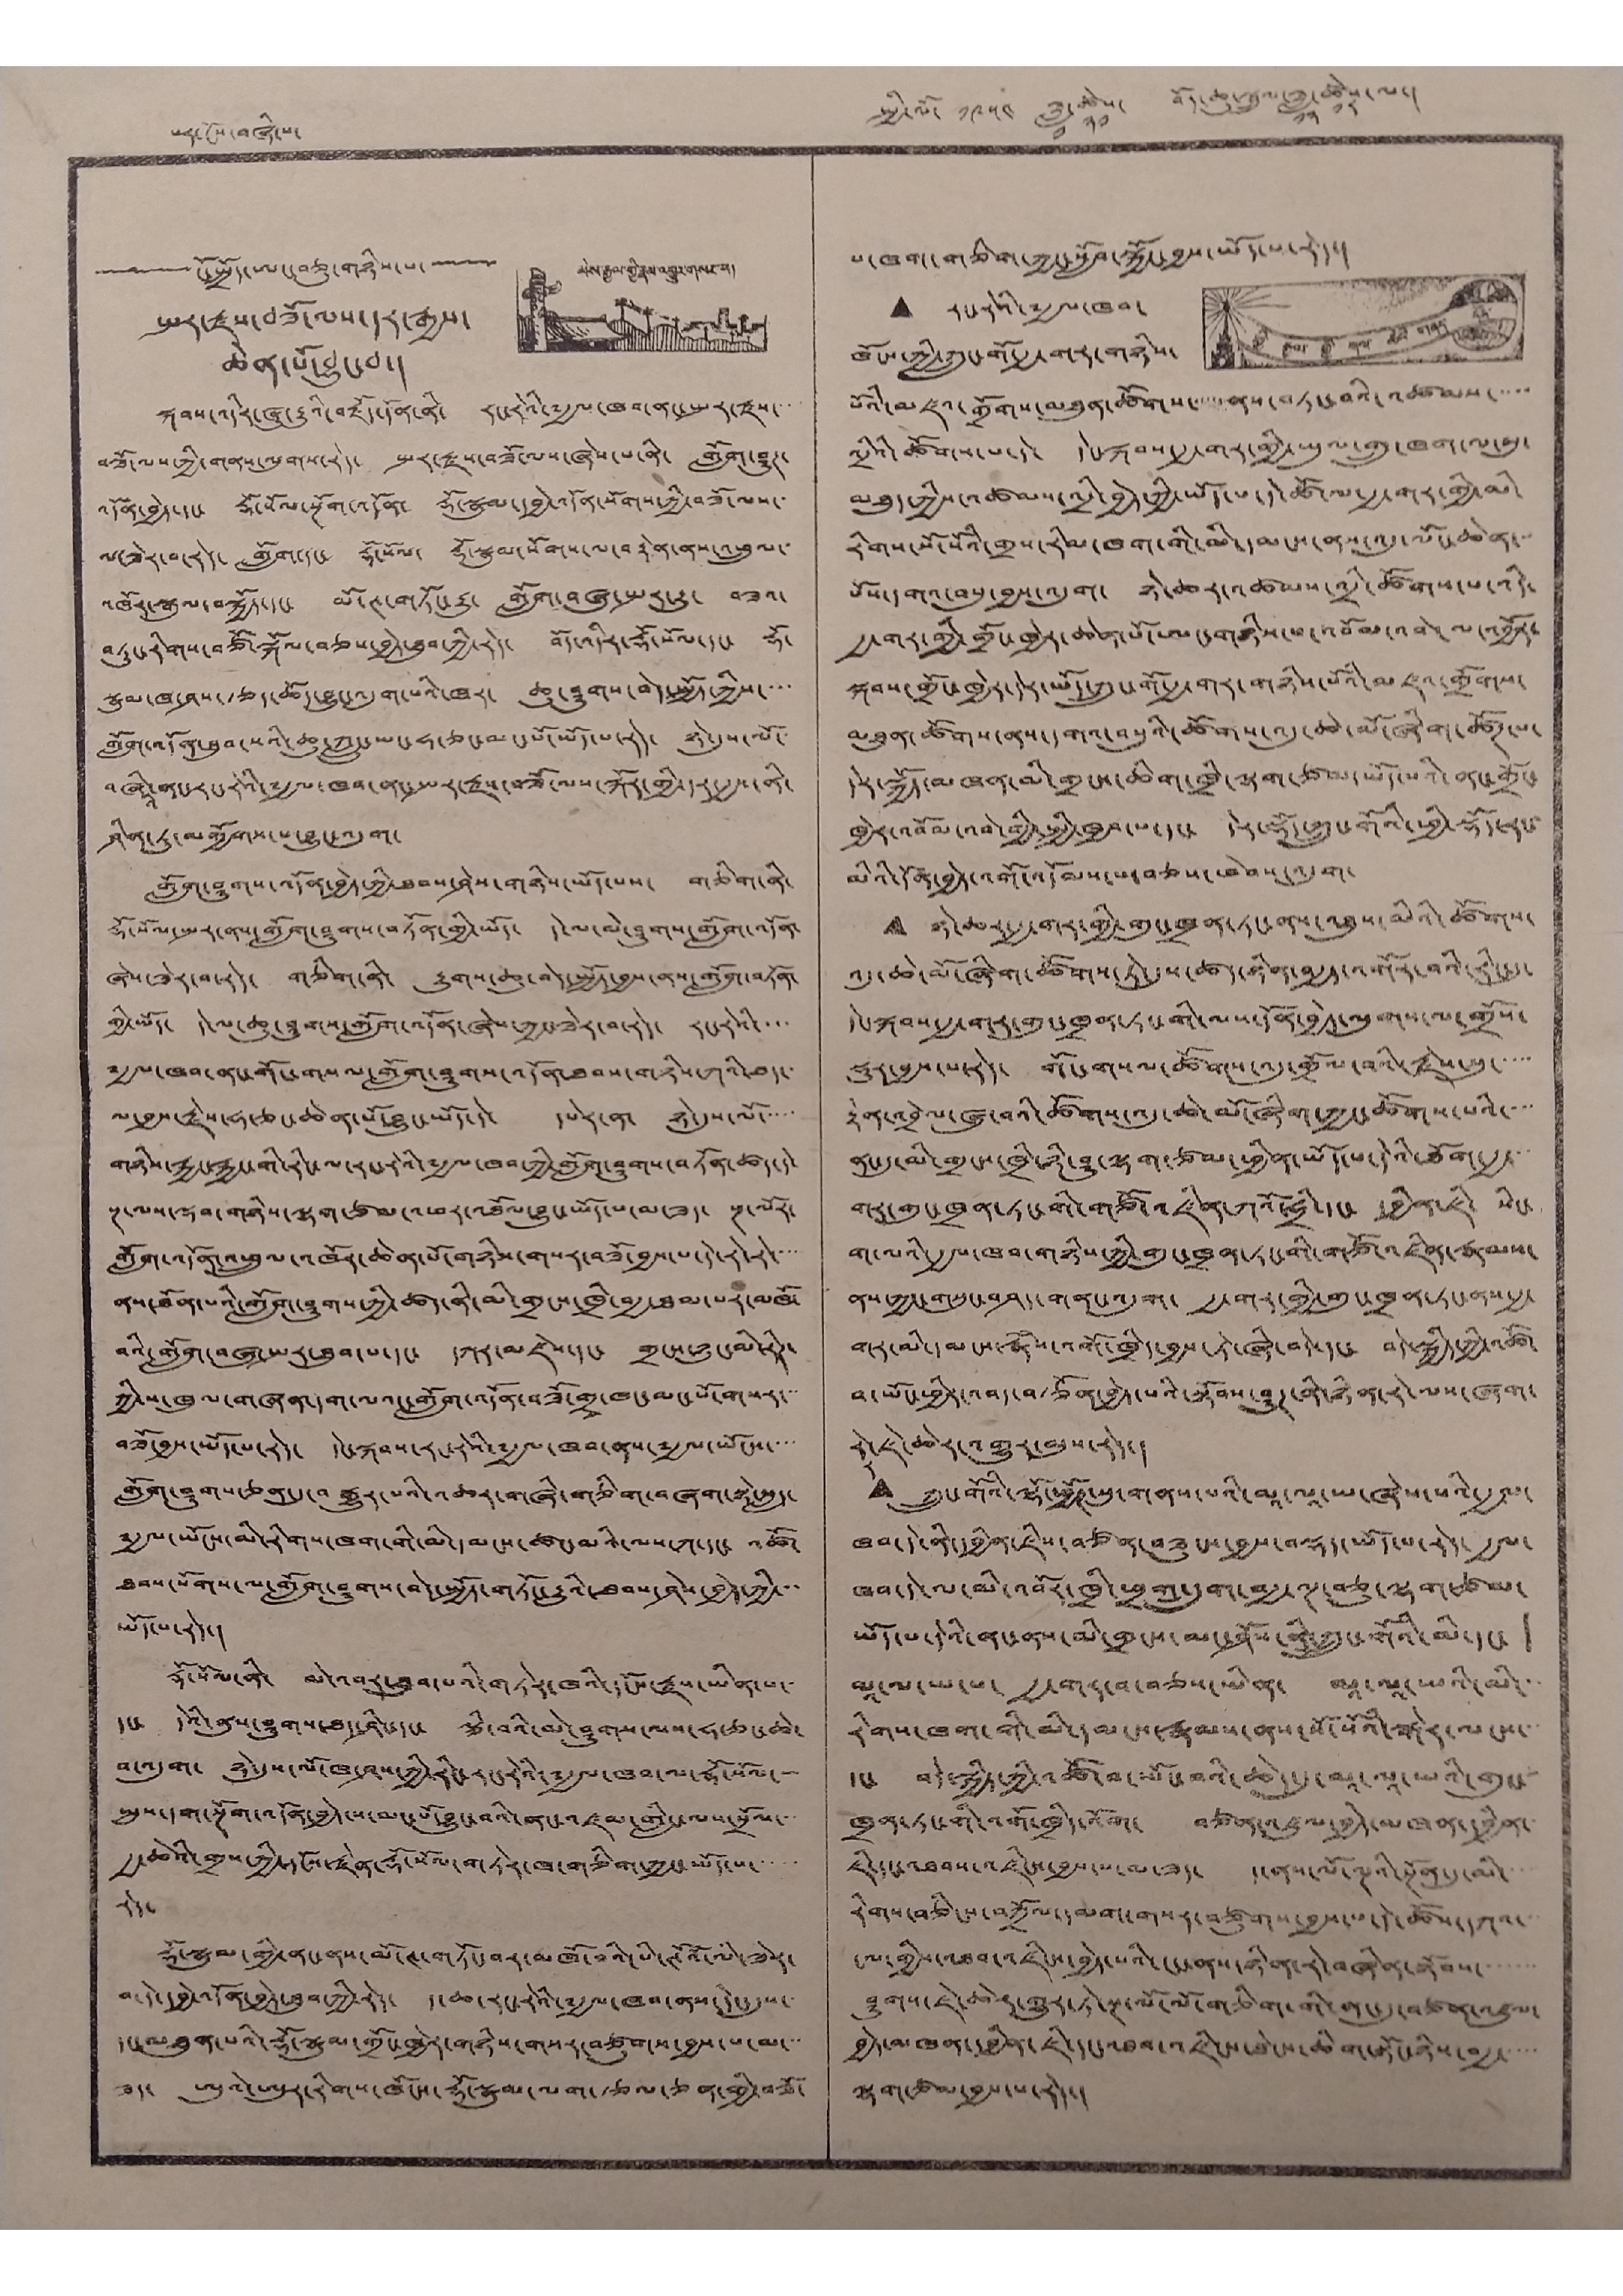པར་ངོས་བཞི་པ་ སྤྱི་ལོ་ ༡༩༥༤ ཟླ་
༡
ཚེས་
༢༡
བོད་ཆུ་སྦྲུལ་ཟླ་
༡༢
ཚེས་
༡༨
ལ་།
མེས་རྒྱལ་གྱི་རྣམ་འགྱུར་གསར་པ།
"ངོ་སྤྲོད་ཨང་བཅུ་གཉིས་པ་"
སྤར་རྫས་བཟོ་ལས་དར་རྒྱས་
ཆེན་པོ་བྱུང་བ་།
སྐབས་འདིར་ཞུ་རྒྱུའི་བརྗོད་དོན་ནི་ རང་རེའི་༸རྒྱལ་ཁབ་ནང་སྤར་རྫས་་་་
བཟོ་ལས་ཀྱི་གནས་ལུགས་རེད་ སྤར་རྫས་བཟོ་ལས་ཞེས་པ་ནི་ གློག་ཤུཊ་
འདོན་བྱེད་དང་ རྡོ་སོལ་སྔོག་འདོན་ རྡོ་སྣུམ་དབྱེ་འདོན་སོགས་ཀྱི་བཟོ་ལས་་
ལ་ཟེར་བ་རེད་ གློག་དང་ རྡོ་སོལ་ རྡོ་སྣུམ་སོགས་ལ་བརྟེན་ནས་འཕྲུལ་་
འཁོར་སྒུལ་བསྐྱོད་དང་ མོ་ཊ་གཏོང་རྒྱུ་ གློག་བཞུ་སྤར་རུ་ བཟའ་
བཏུང་རིགས་བཙོ་སྐོལ་བཅས་བྱེད་ཐུབ་ཀྱི་རེད་ བོད་འདིར་རྡོ་སོལ་དང་ རྡོ་
སྣུམ་ཁ་ཤས་རྩད་ཆོད་བྱུང་འདུག་པའི་ཁར་ ཆུ་ཤུགས་བེད་སྤྱོད་ཀྱིས་་་་
གློག་འདོན་ཐུབ་པའི་ཆུ་ཀླུང་ཡང་ཧ་ཅང་མང་པོ་ཡོད་པ་རེད་ ཉེ་དུས་ལོ་་
བཞི་ནང་རང་རེའི་༸རྒྱལ་ཁབ་ནང་སྤར་རྫས་བཟོ་ལས་སྐོར་གྱི་དར་རྒྱས་ནི་
འི
ཤིན་ཏུ་མགྱོགས་པ་བྱུང་འདུག་
གློག་ཤུགས་འདོན་བྱེད་ཀྱི་ཐབས་ཤེས་གཉིས་ཡོད་པས་ གཅིག་ནི་
རྡོ་སོལ་སྤར་ནས་གློག་ཤུགས་བཏོན་གྱི་ཡོད་ དེ་ལ་མེ་ཤུགས་གློག་འདོན་
ཞེས་ཟེར་བ་རེད་ གཅིག་ནི་ རྒྱུགས་ཆུ་བེད་སྤྱོད་བཡས་ནས་གློག་བཏོན་
གྱི་ཡོད་ དེ་ལ་ཆུ་ཤུགས་གློག་འདོན་ཞེས་ཀྱང་ཟེར་བ་རེད་ རང་རེའི་་་་
༸རྒྱལ་ཁབ་ནང་གོང་གསལ་གློག་ཤུགས་འདོན་ཐབས་གཉིས་ཀའི་ཐད་
ལ་བྱས་རྗེས་ཧ་ཅང་ཆེན་པོ་བྱུང་ཡོད་དེ་ དཔེར་ན་ ཉེ་དུས་ལོ་་་་་
གཉིས་རྐྱང་རྐྱང་གི་རིང་ལ་རང་རེའི་༸རྒྱལ་ཁབ་ཀྱི་གློག་ཤུགས་བཏོན་ཚད་དེ་
སྔ་ལས་ལྡབ་གཉིས་ལྷག་ཙམ་འཕར་འཐོལ་བྱུང་ཡོད་པ་མ་ཟད་ སྔ་ལོར་
གློག་འདོན་འཕྲུལ་འཁོར་ཆེན་པོ་གཉིས་གསར་བཟོ་བྱས་པ་དེ་རེ་རེ་་་་
ནས་ཐོན་པའི་གློག་ཤུགས་ཀྱི་ཚད་ནི་མི་གྲངས་ཁྲི་བརྒྱ་ཐམ་པར་མཁོ་
བའི་གློག་བཞུ་སྤར་ཐུབ་པ་དང་ དཀར་མཛེས་དང་ གྲངས་ཉུང་མི་རིཊ་
ཀྱི་ས་ཁུལ་གཞན་དག་ལའང་གློག་འདོན་བཟོ་གྲྭ་ཁང་མང་པོ་གསར་་་
བཟོ་བྱས་ཡོད་པ་རེད་ དེངས་སྐབས་རང་རེའི་༸རྒྱལ་ཁབ་ནས་༸རྒྱལ་ཡོངས་་་་
གློག་ཤུགས་ཅན་དུ་བརྒྱུར་པའི་འཆར་གཞི་གཅིག་བཞག་སྟེ་སླད་
༸རྒྱལ་ཡོངས་མི་རིགས་ཁག་གི་མི་དམངས་ཚང་མའི་ལས་ཀ་དང་ འཚོ་
ཐབས་སོགས་ལ་གློག་ཤུགས་བེད་སྤྱོད་གཏོང་རྒྱུའི་ཐབས་ཤེས་བྱེད་ཀྱི་་་
ཡོད་པ་རེད་།
རྡོ་སོལ་ནི་ མེ་འབར་ཐུབ་པའི་གཏེར་ཁའི་དངོས་རྫས་ཡིན་པ་་
དང་ དེའི་ནུས་ཤུགས་ཐད་ཤིང་དང་ ལྕི་བ་མེ་ཤུགས་ལས་ཧ་ཅང་ཆེ་
བ་འདུག་ ཉེ་དུས་ལོ་ཁ་ཤས་ཀྱི་རིང་རང་རེའི་༸རྒྱལ་ཁབ་ལ་རྡོ་སོལ་་
སྤུས་དག་སྔོག་འདོན་བྱེད་ས་མང་པོ་བྱུང་བའི་ནང་འཛམ་གླིང་ལས་སྲོལ་་་
རྒྱ་ཆེའི་གྲས་ཀྱི་དངོས་རྗེན་རྡོ་སོལ་གཏེར་ཁ་གཅིག་ཀྱང་ཡོད་པ་་་་་
རེད་
རྡོ་སྣུམ་གྱི་ནང་ནས་མོ་ཊ་གཏོང་བར་མཁོ་བའི་པི་ཊོའོ་ལི་ཟེར་
བ་དེ་དབྱེ་འདོན་བྱེད་ཐུབ་ཀྱི་རེད་ ད་ཆ་རང་རེའི་༸རྒྱལ་ཁབ་ནས་དེང་དུས་་
དང་མཐུན་པའི་རྡོ་སྣུམ་གྲོང་ཁྱེར་གཉིས་གསར་བཙུགས་བྱས་པ་མ་་་
ཟད་ ཨུའེ་ཨུར་རིགས་ཁོངས་རྡོ་སྣུམ་ལག་རྩལ་ཅན་གྱི་བཟོ་
ཕྱི་རྒྱལ་གྱི་གལ་ཆེའི་གནད་དོན་
པ་ཁག་གཅིག་ཀྱང་སློབ་སྐྱོང་བྱས་ཡོད་པ་རེད་།
• རང་རེའི་༸རྒྱལ་ཁབ་
ཁོངས་ཀྱི་ཀྲུང་གོ་རྒྱ་གར་གཉིས་
པོའི་མཛའ་གྲོགས་མཐུན་ཚོགས་་་་་ནས་བཏང་བའི་འཚམས་་་་་
འདྲིའི་ཚོགས་པ་དེ་ དེང་སྐབས་རྒྱ་གར་གྱི་ཡུལ་གྲུ་ཁག་ལ་མུ་
མཐུད་ཀྱིས་འཚམས་འདྲི་བྱེད་ཀྱི་ཡོད་པ་དེ་ཚོ་ལ་རྒྱ་གར་གྱི་མི་
རིགས་སོ་སོའི་གྲས་རིམ་ཁག་གི་མི་དམངས་ནས་འདུ་ལོང་ཆེན་
པོས་དགའ་བསུ་བྱས་འདུག་ ཉེ་ཆར་འཚམས་འདྲི་ཚོགས་པ་འདི་
རྒྱ་གར་གྱི་གྲོང་ཁྱེར་ཆེན་པོ་ཨང་གཉིས་པ་འབོམ་འབེ་ལ་འབྱོར་
སྐབས་གྲོང་ཁྱེར་དེར་ཡོད་ཀྲུང་གོ་རྒྱ་གར་གཉིས་པོའི་མཛའ་གྲོགས་
མཐུན་ཚོགས་ནས་དགའ་བསུའི་ཚོགས་འདུ་ཆེ་མོ་ཞིག་ཚོཊ་པ་
དེར་སྐྱོད་མཁན་མི་གྲངས་ཆིག་ཁྲི་ལྷག་ཙམ་ཡོད་པའི་ནང་གྲོང་
ཁྱེར་འབོམ་འབེ་གྱི་སྤྱི་ཁྱབ་པ་དང་ དེར་སྡོད་ཀྲུང་གོའི་ཕྱི་སྡོད་རང་
མིའི་དོན་བྱེད་འགོ་འདོམས་པ་བཅས་ཕེབས་འདུག་
• ཉེ་ཆར་རྒྱ་གར་གྱི་གུང་ཁྲན་ཏང་ནས་འཐུས་མིའི་ཚོགས་
འདུ་ཆེ་མོ་ཞིག་ཚོགས་ཏེ་དུས་ཚད་ཉིན་བརྒྱད་འགོར་བའི་རིང་དུ་
དེང་སྐབས་རྒྱ་གར་གུང་ཁྲན་ཏང་གི་ལས་དོན་བྱེད་ལུགས་ལ་གྲོས་
སྡུར་བྱས་པ་རེད་ གོང་གསལ་ཚོགས་འདུ་གྲོལ་བའི་རྗེས་སུ་་་་
རྟེན་འབྲེལ་ཞུ་བའི་ཚོགས་འདུ་ཆེ་མོ་ཞིག་ཀྱང་ཚོགས་པའི་་་་
ནང་དུ་མི་གྲངས་ཁྲི་ཉི་ཤུ་ལྷག་ཙམ་ཕྱིན་ཡོད་པ་དེའི་ཐོག་རྒྱ་་་
གར་གུང་ཁྲན་ཏང་གི་གཙོ་འཛིན་ཀའོ་ཧྲི་དང་ དབྱིན་ཇི་ སེང་
ག་ལའི་རྒྱལ་ཁབ་གཉིས་ཀྱི་གུང་ཁྲན་ཏང་གི་གཙོ་འཛིན་རྣམས་
ནས་ཀྱང་གསུང་བཤད་གནང་འདུག་ རྒྱ་གར་གྱི་གུང་ཁྲན་ཏང་ནས་རྒྱ་
གར་མི་དམངས་རྣཾས་འགོ་ཁྲིད་བྱས་ཏེ་ཞི་བདེ་དང་ བདེ་སྐྱོད་ཀྱི་འཚོ་
བ་ཡོང་ཕྱིར་འབད་བརྩོན་བྱེད་པའི་སྟོབས་ཤུཊ་ནི་ཉི་རེ་ལས་ཞག་
རེ
ར
་ཇེ་ཆེར་འགྱུར་མུས་རེད་།
• ཀྲུང་གོའི་ལྷོ་ཕྱོཏ་སུ་གནས་པའི་མཱ་ལཱ་ཡ་ཞེས་པའི་རྒྱལ་
ཁབ་དེ་ནི་དབྱིན་ཇིས་བཙན་བཟུང་བྱས་བསྡད་ཡོད་པ་རེད་ རྒྱལ་
ཁབ་དེ་ལ་མི་འབོར་ཁྲི་ཕྲག་དྲུག་བརྒྱ་ལྔ་བཅུ་ལྷག་ཙམ་
ཡོད་པ་དེའི་ནང་ནས་མི་གྲངས་མང་ཤོས་ནི་ཀྲུང་གོའི་མི་དང་
མཱ་ལ་ཡ་པ་ རྒྱ་གར་བ་བཅས་ཡིན་ མཱ་ལཱ་ཡའི་མི་་་
རིགས་ཁག་གི་མི་དམངས་རྣམས་ནས་སོ་སོའི་སྒེར་ལངས་་་
དང་ བདེ་སྐྱིད་ཀྱི་འཚོ་བ་ཡོང་བའི་ཆེད་དུ་མཱ་ལཱ་ཡའི་གུང་
ཁྲན་ཏང་གི་འགོ་ཁྲིད་འོག་ བཙན་འཛུལ་བྱེད་མཁན་དབྱིན་
ཇི་དང་འཐབས་འཛིངས་བྱས་པ་མ་ཟད་ ད་ནས་ལོ་ལྔའི་སྔོནན་དུ་མི་་་་་
རིགས་བཅིངས་བཀྲོལ་དམག་གསར་བཙུགས་བྱས་པ་དེ་ཚོས་དཀའ་་་
ངལ་གྱིས་འཐབ་འཛིངས་བྱེད་པའི་ངང་ནས་ཉིན་རེ་བཞིན་སྟོབས་་་་་་་
ཤུགས་ཇེ་ཆེར་གྱུར་ཏེ་སྔ་ལོ་ལོ་གཅིག་གི་ནང་དུ་བཙན་འཛུལ་
བྱེད་མཁན་དབྱིན་ཇི་དང་འཐབ་འཛིངས་ཐེངས་ཆིག་སྟོང་ཉིས་བརྒྱ་་་་་
ལྷག་ཙམ་བྱས་པ་རེད་།
